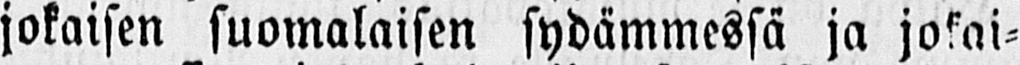jokaisen suomalaisen sydämmessä ja jokai-
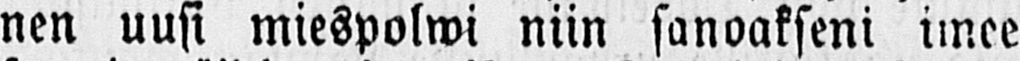nen uusi miespolwi niin sanoakseni imee
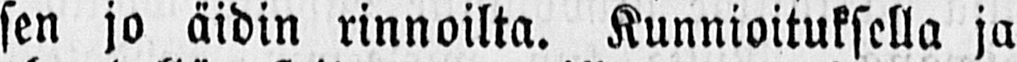sen jo äidin rinnoilta. Kunnioituksella ja
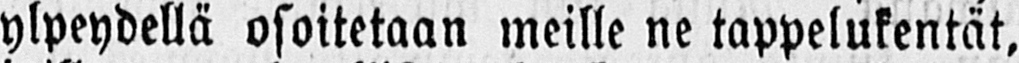ylpeydellä osoitetaan meille ne tappelukentät,
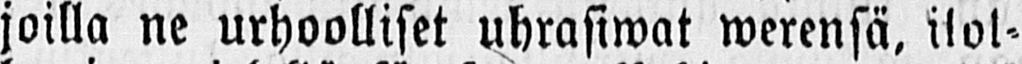joilla ne urhoolliset uhrasiwat werensä, ilol-
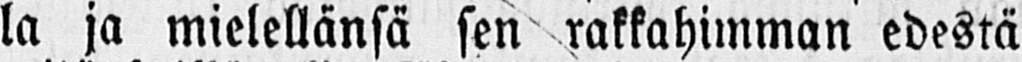la ja mielellänsä sen rakkahimman edestä
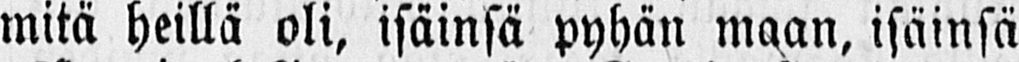mitä heillä oli, isäinsä pyhän maan, isäinsä
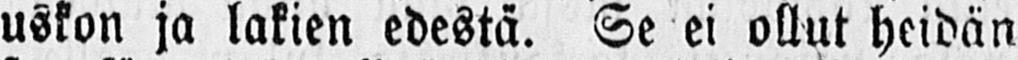uskon ja lakien edestä. Se ei ollut heidän
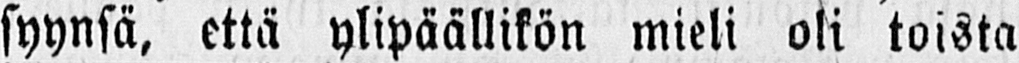syynsä, että ylipäällikön mieli oli toista
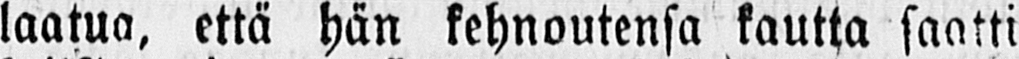laatua, että hän kehnoutensa kautta saatti
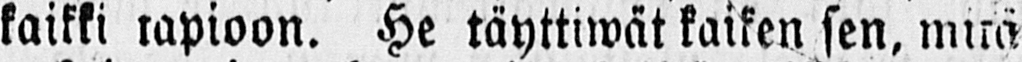kaikki tapioon. He täyttiwät kaiken sen, mitä
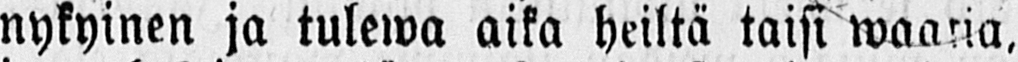nykyinen ja tulewa aika heiltä taisi waatia,
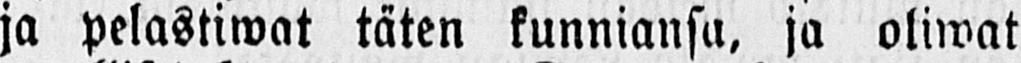ja pelastiwat täten kunniansa, ja oliwat
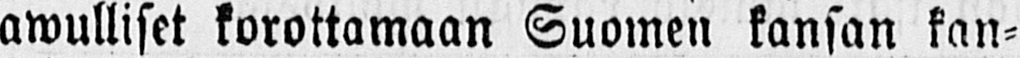awulliset korottamaan Suomen kansan kan-
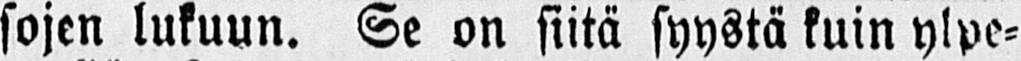sojen lukuun. Se on siitä syystä kuin ylpe-
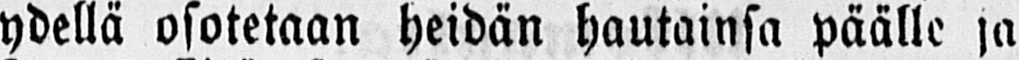ydellä osotetaan heidän hautainsa päälle ja
